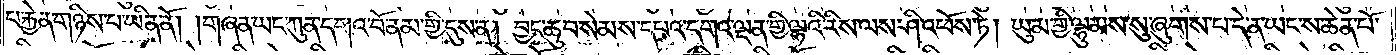པ་རྐྱེན་གཉིས་པ་ཡིན་ནོ། །གཞན་ཡང་ཀུན་དགའ་བོ་ནམ་གྱི་དུས་ན། བྱང་ཆུབ་སེམས་དཔའ་དགའ་ལྡན་གྱི་ལྷའི་རིས་ལས་ཤི་འཕོས་ཏེ། ཡུམ་གྱི་ལྷུམས་སུ་ཞུགས་པ་དེ་ན་ཡང་ས་ཆེན་པོ་
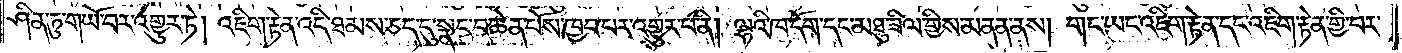ཤིན་ཏུ་གཡོ་བར་འགྱུར་ཏེ། འཇིག་རྟེན་འདི་ཐམས་ཅད་དུ་སྣང་བ་ཆེན་པོས་ཁྱབ་པར་འགྱུར་པ་ནི། ལྷའི་ཁ་དོག་དང་མཐུ་ཟིལ་གྱིས་མནན་ནས། གང་ཡང་འཇིག་རྟེན་དང་འཇིག་རྟེན་གྱི་བར་
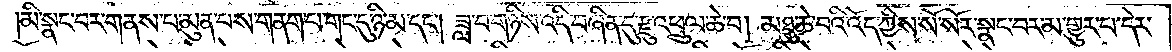མི་སྣང་བར་གནས་པ་མུན་པས་གནག་པ་གང་དུ་ཉི་མ་དང༌། ཟླ་བ་གཉིས་འདི་བཞིན་དུ་རྫུ་འཕྲུལ་ཆེ་བ། མཐུ་ཆེ་བའི་འོད་ཀྱིས་སོ་སོར་སྣང་བར་མ་གྱུར་པ་དེར་
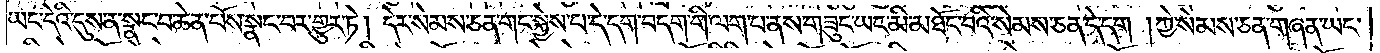ཡང་དེའི་དུས་ན་སྣང་བ་ཆེན་པོས་སྣང་བར་གྱུར་ཏེ། དེར་སེམས་ཅན་གང་སྐྱེས་པ་དེ་དག་བདག་གི་ལག་པ་ནས་གཟུང་ཡང་མི་མཐོང་བའི་སེམས་ཅན་དེ་དག །ཀྱེ་སེམས་ཅན་གཞན་ཡང་
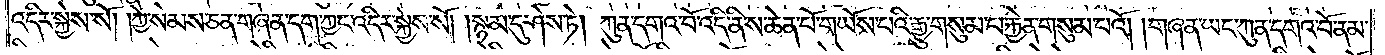འདིར་སྐྱེས་སོ། །ཀྱེ་སེམས་ཅན་གཞན་དག་ཀྱང་འདིར་སྐྱེས་སོ། །སྙམ་དུ་ཤེས་ཏེ། ཀུན་དགའ་བོ་འདི་ནི་ས་ཆེན་པོ་གཡོས་པའི་རྒྱུ་གསུམ་པ་རྐྱེན་གསུམ་པའོ། །གཞན་ཡང་ཀུན་དགའ་བོ་ནམ་
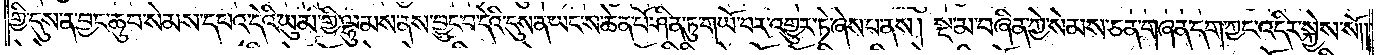གྱི་དུས་ན་བྱང་ཆུབ་སེམས་དཔའ་དེའི་ཡུམ་གྱི་ལྷུམས་ནས་བྱུང་བ་དེའི་དུས་ན་ཡང་ས་ཆེན་པོ་ཤིན་ཏུ་གཡོ་བར་འགྱུར་ཏེ་ཞེས་པ་ནས། སྔ་མ་བཞིན་ཀྱེ་སེམས་ཅན་གཞན་དག་ཀྱང་འདིར་སྐྱེས་སོ༎
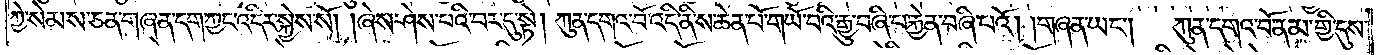ཀྱེ་སེམས་ཅན་གཞན་དག་ཀྱང་འདིར་སྐྱེས་སོ། །ཞེས་ཤེས་པའི་བར་དུ་སྟེ། ཀུན་དགའ་བོ་འདི་ནི་ས་ཆེན་པོ་གཡོ་བའི་རྒྱུ་བཞི་པ་རྐྱེན་བཞི་པའོ། །གཞན་ཡང༌། ཀུན་དགའ་བོ་ནམ་གྱི་དུས་
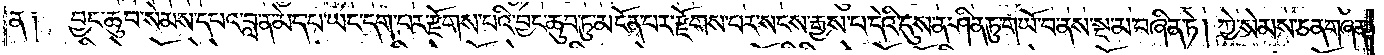ན༑ བྱང་ཆུབ་སེམས་དཔའ་བླ་ན་མེད་པ་ཡང་དག་པར་རྫོགས་པའི་བྱང་ཆུབ་ཏུ་མངོན་པར་རྫོགས་པར་སངས་རྒྱས་པ་དེའི་དུས་ན་ཤིན་ཏུ་གཡོ་བ་ནས་སྔ་མ་བཞིན་ཏེ། ཀྱེ་སེམས་ཅན་གཞན་
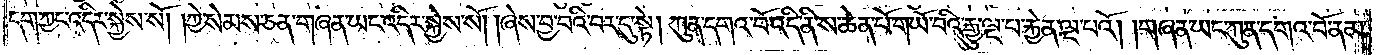དག་ཀྱང་འདིར་སྐྱེས་སོ། །ཀྱེ་སེམས་ཅན་གཞན་ཡང་འདིར་སྐྱེས་སོ། །ཞེས་བྱ་བའི་བར་དུ་སྟེ། ཀུན་དགའ་བོ་འདི་ནི་ས་ཆེན་པོ་གཡོ་བའི་རྒྱུ་ལྔ་པ་རྐྱེན་ལྔ་པའོ། །གཞན་ཡང་ཀུན་དགའ་བོ་ནམ་
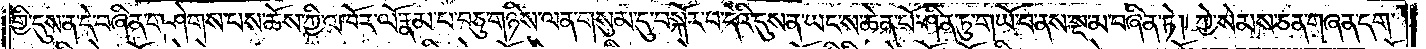གྱི་དུས་ན་དེ་བཞིན་གཤེགས་པས་ཆོས་ཀྱི་འཁོར་ལོ་རྣམ་པ་བཅུ་གཉིས་ལན་གསུམ་དུ་བསྐོར་བ་དེའི་དུས་ན་ཡང་ས་ཆེན་པོ་ཤིན་ཏུ་གཡོ་བ་ནས་སྔ་མ་བཞིན་ཏེ། ཀྱེ་སེམས་ཅན་གཞན་དག་
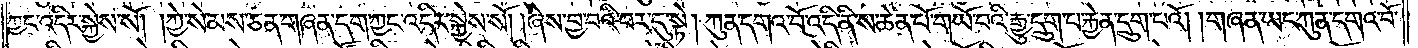ཀྱང་འདིར་སྐྱེས་སོ། །ཀྱེ་སེམས་ཅན་གཞན་དག་ཀྱང་འདིར་སྐྱེས་སོ། །ཞེས་བྱ་བའི་བར་དུ་སྟེ། ཀུན་དགའ་བོ་འདི་ནི་ས་ཆེན་པོ་གཡོ་བའི་རྒྱུ་དྲུག་པ་རྐྱེན་དྲུག་པའོ། །གཞན་ཡང་ཀུན་དགའ་བོ་
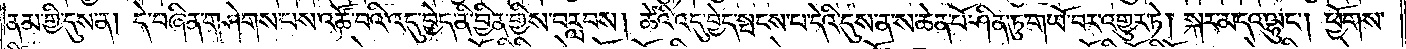ནམ་གྱི་དུས་ན། དེ་བཞིན་གཤེགས་པས་འཚོ་བའི་འདུ་བྱེད་ནི་བྱིན་གྱིས་བརླབས། ཚེའི་འདུ་བྱེད་སྤངས་པ་དེའི་དུས་ན་ས་ཆེན་པོ་ཤིན་ཏུ་གཡོ་བར་འགྱུར་ཏེ། སྐར་མདའ་ལྷུང༌། ཕྱོགས་
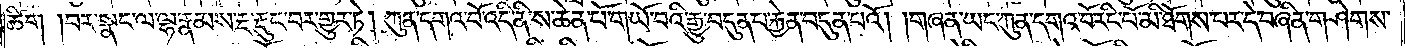ཚིག །བར་སྣང་ལ་ལྷ་རྣམས་རྔ་རྡུང་བར་གྱུར་ཏེ། ཀུན་དགའ་བོ་འདི་ནི་ས་ཆེན་པོ་གཡོ་བའི་རྒྱུ་བདུན་པ་རྐྱེན་བདུན་པའོ། །གཞན་ཡང་ཀུན་དགའ་བོ་མི་ཐོགས་པར་དེ་བཞིན་གཤེགས་
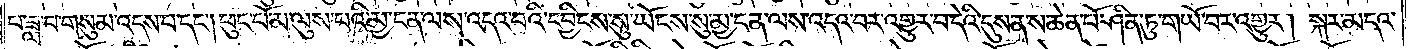པ་ཟླ་བ་གསུམ་འདས་པ་དང༌། ཕུང་པོ་མ་ལུས་པའི་མྱ་ངན་ལས་འདའ་བའི་དབྱིངས་སུ་ཡོངས་སུ་མྱ་ངན་ལས་འདའ་བར་འགྱུར་བ་དེའི་དུས་ན་ས་ཆེན་པོ་ཤིན་ཏུ་གཡོ་བར་འགྱུར། སྐར་མདའ་
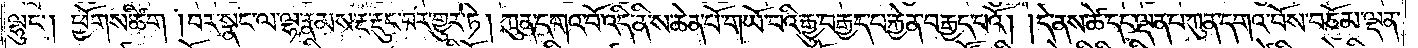ལྷུང༌། ཕྱོགས་ཚིག །བར་སྣང་ལ་ལྷ་རྣམས་རྔ་རྡུང་བར་གྱུར་ཏེ། ཀུན་དགའ་བོ་འདི་ནི་ས་ཆེན་པོ་གཡོ་བའི་རྒྱུ་བརྒྱད་པ་རྐྱེན་བརྒྱད་པའོ། །དེ་ནས་ཚེ་དང་ལྡན་པ་ཀུན་དགའ་བོས་བཅོམ་ལྡན་
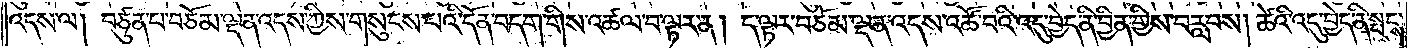འདས་ལ། བཙུན་པ་བཅོམ་ལྡན་འདས་ཀྱིས་གསུངས་པའི་དོན་བདག་གིས་འཚལ་བ་ལྟར་ན། ད་ལྟར་བཅོམ་ལྡན་འདས་འཚོ་བའི་འདུ་བྱེད་ནི་བྱིན་གྱིས་བརླབས། ཚེའི་འདུ་བྱེད་ནི་སྤངས་
